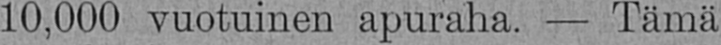10.000 vuotuinen apuraha. — Tä mä
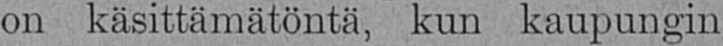on käsittämätöntä, kun kaupungin
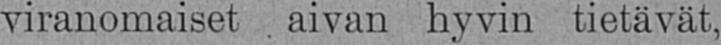viranomaiset aivan hyvin tietävät,
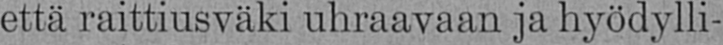että raittiusväki uhraavaan ja hyödylli-
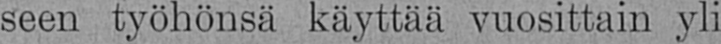seen työhönsä käyttää vuosittain yli
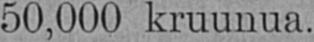50.000 kruunua.
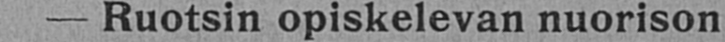— Ruotsin opiskelevan nuorison
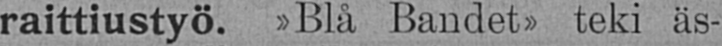raittiustyö. »Blå Bandet» teki äs-
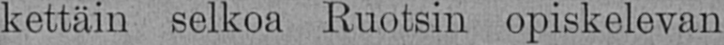kettäin selkoa Ruotsin opiskelevan
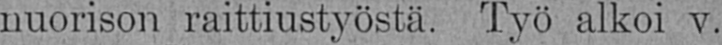nuorison raittiustyöstä. Työ alkoi v.
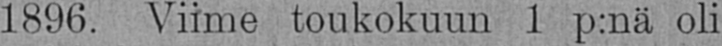1896. Viime toukokuun 1 p:nä oli
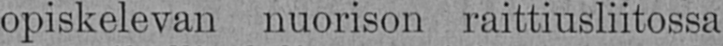opiskelevan nuorison raittiusliitossa
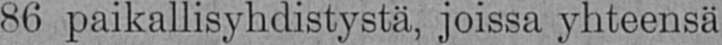86 paikallisyhdistystä, joissa yhteensä
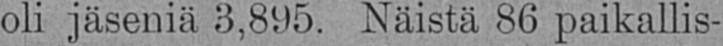oli jäseniä 3,895. Näistä 86 paikallis-
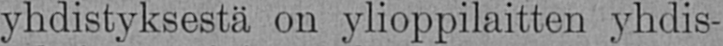yhdistyksestä on ylioppilaitten yhdis-
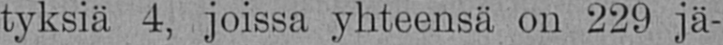tyksiä 4, joissa yhteensä on 229 jä-
